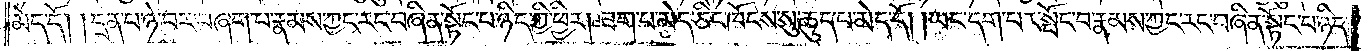མེད་དོ། །དྲན་པ་ཉེ་བར་བཞག་པ་རྣམས་ཀྱང་རང་བཞིན་སྟོང་པ་ཉིད་ཀྱི་ཕྱིར། ཟག་པ་མེད་ཅིང་ཁོངས་སུ་ཆུད་པ་མེད་དོ། །ཡང་དག་པར་སྤོང་བ་རྣམས་ཀྱང་རང་བཞིན་སྟོང་པ་ཉིད་
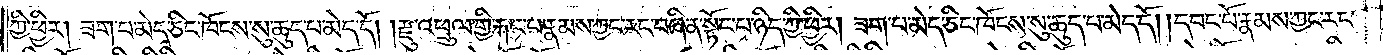ཀྱི་ཕྱིར། ཟག་པ་མེད་ཅིང་ཁོངས་སུ་ཆུད་པ་མེད་དོ། །རྫུ་འཕྲུལ་གྱི་རྐང་པ་རྣམས་ཀྱང་རང་བཞིན་སྟོང་པ་ཉིད་ཀྱི་ཕྱིར། ཟག་པ་མེད་ཅིང་ཁོངས་སུ་ཆུད་པ་མེད་དོ། །དབང་པོ་རྣམས་ཀྱང་རང་
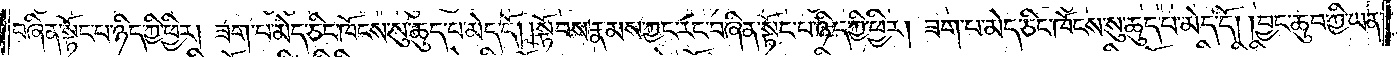བཞིན་སྟོང་པ་ཉིད་ཀྱི་ཕྱིར། ཟག་པ་མེད་ཅིང་ཁོངས་སུ་ཆུད་པ་མེད་དོ། །སྟོབས་རྣམས་ཀྱང་རང་བཞིན་སྟོང་པ་ཉིད་ཀྱི་ཕྱིར། ཟག་པ་མེད་ཅིང་ཁོངས་སུ་ཆུད་པ་མེད་དོ། །བྱང་ཆུབ་ཀྱི་ཡན་
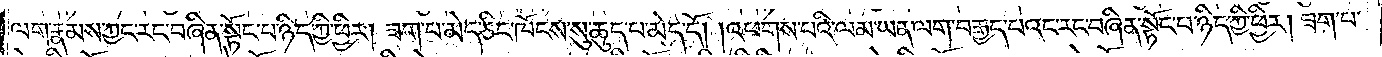ལག་རྣམས་ཀྱང་རང་བཞིན་སྟོང་པ་ཉིད་ཀྱི་ཕྱིར། ཟག་པ་མེད་ཅིང་ཁོངས་སུ་ཆུད་པ་མེད་དོ། །འཕགས་པའི་ལམ་ཡན་ལག་བརྒྱད་པའང་རང་བཞིན་སྟོང་པ་ཉིད་ཀྱི་ཕྱིར། ཟག་པ་
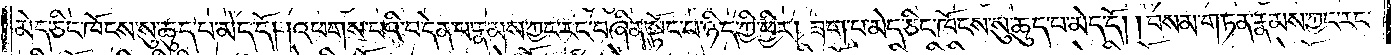མེད་ཅིང་ཁོངས་སུ་ཆུད་པ་མེད་དོ། །འཕགས་པའི་བདེན་པ་རྣམས་ཀྱང་རང་བཞིན་སྟོང་པ་ཉིད་ཀྱི་ཕྱིར། ཟག་པ་མེད་ཅིང་ཁོངས་སུ་ཆུད་པ་མེད་དོ། །བསམ་གཏན་རྣམས་ཀྱང་རང་
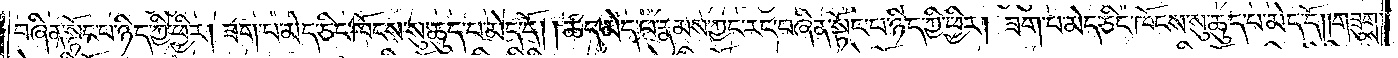བཞིན་སྟོང་པ་ཉིད་ཀྱི་ཕྱིར། ཟག་པ་མེད་ཅིང་ཁོངས་སུ་ཆུད་པ་མེད་དོ། །ཚད་མེད་པ་རྣམས་ཀྱང་རང་བཞིན་སྟོང་པ་ཉིད་ཀྱི་ཕྱིར། ཟག་པ་མེད་ཅིང་ཁོངས་སུ་ཆུད་པ་མེད་དོ། །གཟུགས་
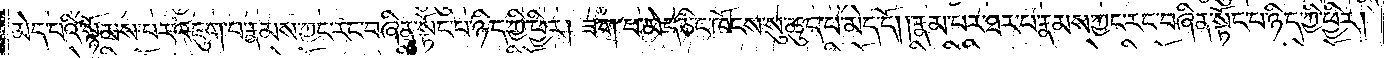མེད་པའི་སྙོམས་པར་འཇུག་པ་རྣམས་ཀྱང་རང་བཞིན་སྟོང་པ་ཉིད་ཀྱི་ཕྱིར། ཟག་པ་མེད་ཅིང་ཁོངས་སུ་ཆུད་པ་མེད་དོ། །རྣམ་པར་ཐར་པ་རྣམས་ཀྱང་རང་བཞིན་སྟོང་པ་ཉིད་ཀྱི་ཕྱིར།
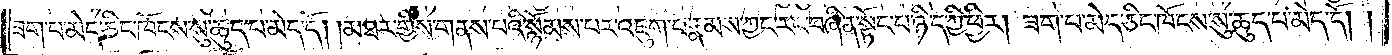ཟག་པ་མེད་ཅིང་ཁོངས་སུ་ཆུད་པ་མེད་དོ། །མཐར་གྱིས་གནས་པའི་སྙོམས་པར་འཇུག་པ་རྣམས་ཀྱང་རང་བཞིན་སྟོང་པ་ཉིད་ཀྱི་ཕྱིར། ཟག་པ་མེད་ཅིང་ཁོངས་སུ་ཆུད་པ་མེད་དོ། །
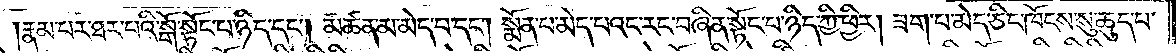རྣམ་པར་ཐར་པའི་སྒོ་སྟོང་པ་ཉིད་དང༌། མཚན་མ་མེད་པ་དང༌། སྨོན་པ་མེད་པའང་རང་བཞིན་སྟོང་པ་ཉིད་ཀྱི་ཕྱིར། ཟག་པ་མེད་ཅིང་ཁོངས་སུ་ཆུད་པ་
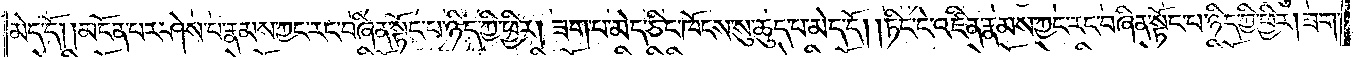མེད་དོ། །མངོན་པར་ཤེས་པ་རྣམས་ཀྱང་རང་བཞིན་སྟོང་པ་ཉིད་ཀྱི་ཕྱིར། ཟག་པ་མེད་ཅིང་ཁོངས་སུ་ཆུད་པ་མེད་དོ། །ཏིང་ངེ་འཛིན་རྣམས་ཀྱང་རང་བཞིན་སྟོང་པ་ཉིད་ཀྱི་ཕྱིར། ཟག་
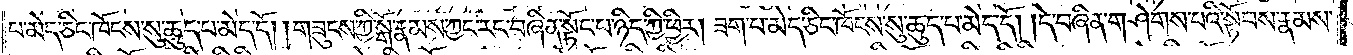པ་མེད་ཅིང་ཁོངས་སུ་ཆུད་པ་མེད་དོ། །གཟུངས་ཀྱི་སྒོ་རྣམས་ཀྱང་རང་བཞིན་སྟོང་པ་ཉིད་ཀྱི་ཕྱིར། ཟག་པ་མེད་ཅིང་ཁོངས་སུ་ཆུད་པ་མེད་དོ། །དེ་བཞིན་གཤེགས་པའི་སྟོབས་རྣམས་
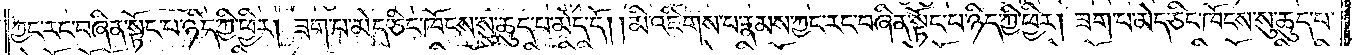ཀྱང་རང་བཞིན་སྟོང་པ་ཉིད་ཀྱི་ཕྱིར། ཟག་པ་མེད་ཅིང་ཁོངས་སུ་ཆུད་པ་མེད་དོ། །མི་འཇིགས་པ་རྣམས་ཀྱང་རང་བཞིན་སྟོང་པ་ཉིད་ཀྱི་ཕྱིར། ཟག་པ་མེད་ཅིང་ཁོངས་སུ་ཆུད་པ་
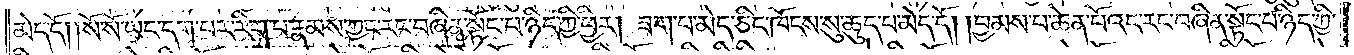མེད་དོ། སོ་སོ་ཡང་དག་པར་རིག་པ་རྣམས་ཀྱང་རང་བཞིན་སྟོང་པ་ཉིད་ཀྱི་ཕྱིར། ཟག་པ་མེད་ཅིང་ཁོངས་སུ་ཆུད་པ་མེད་དོ། །བྱམས་པ་ཆེན་པོའང་རང་བཞིན་སྟོང་པ་ཉིད་ཀྱི་
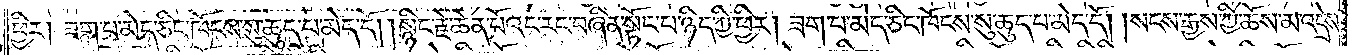ཕྱིར། ཟག་པ་མེད་ཅིང་ཁོངས་སུ་ཆུད་པ་མེད་དོ། །སྙིང་རྗེ་ཆེན་པོའང་རང་བཞིན་སྟོང་པ་ཉིད་ཀྱི་ཕྱིར། ཟག་པ་མེད་ཅིང་ཁོངས་སུ་ཆུད་པ་མེད་དོ། །སངས་རྒྱས་ཀྱི་ཆོས་མ་འདྲེས་
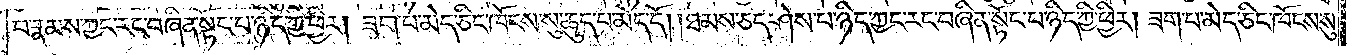པ་རྣམས་ཀྱང་རང་བཞིན་སྟོང་པ་ཉིད་ཀྱི་ཕྱིར། ཟག་པ་མེད་ཅིང་ཁོངས་སུ་ཆུད་པ་མེད་དོ། །ཐམས་ཅད་ཤེས་པ་ཉིད་ཀྱང་རང་བཞིན་སྟོང་པ་ཉིད་ཀྱི་ཕྱིར། ཟག་པ་མེད་ཅིང་ཁོངས་སུ་
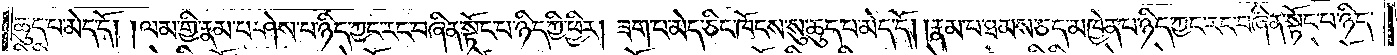ཆུད་པ་མེད་དོ། །ལམ་གྱི་རྣམ་པར་ཤེས་པ་ཉིད་ཀྱང་རང་བཞིན་སྟོང་པ་ཉིད་ཀྱི་ཕྱིར། ཟག་པ་མེད་ཅིང་ཁོངས་སུ་ཆུད་པ་མེད་དོ། །རྣམ་པ་ཐམས་ཅད་མཁྱེན་པ་ཉིད་ཀྱང་རང་བཞིན་སྟོང་པ་ཉིད་
